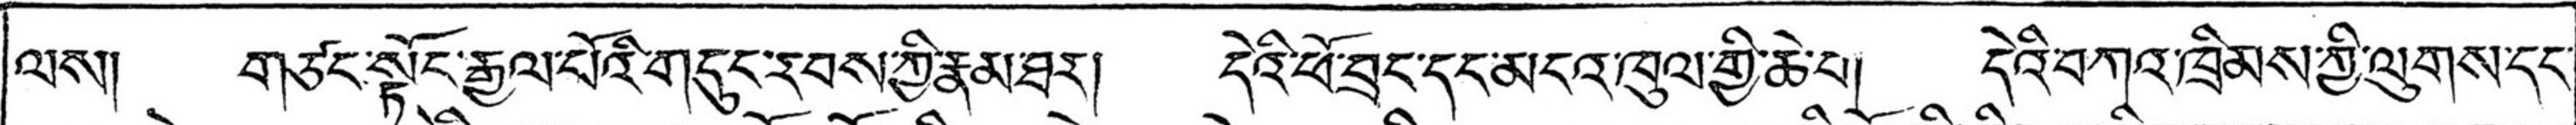ལས། གཙང་སྟོད་རྒྱལ་པོའི་གདུང་རབས་ཀྱི་རྣམ་ཐར། དེའི་ཕོ་བྲང་དང་མངའ་ཁུལ་གྱི་ཆེ་བ། དེའི་བཀའ་ཁྲིམས་གྱི་ལུགས་དང་
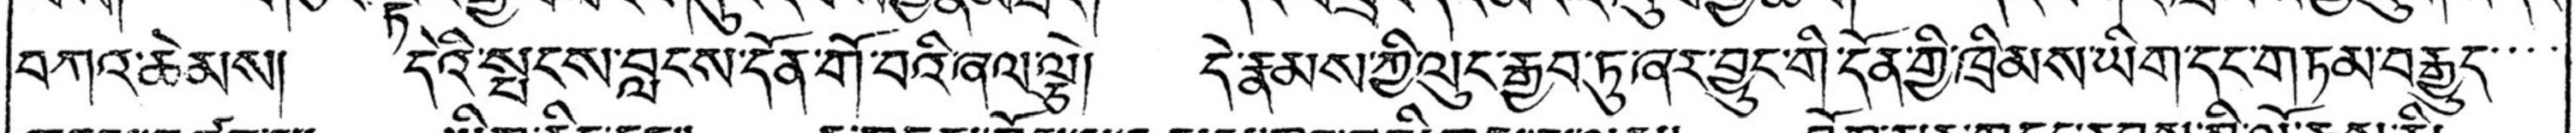བཀའ་ཆེམས། དེའི་སྤངས་བླངས་དོན་གོ་བའི་ཞལ་ལྕེ། དེ་རྣམས་ཀྱི་ལུང་རྒྱབ་ཏུ་ཞར་བྱུང་གི་དོན་གྱི་ཁྲིམས་ཡིག་དང་གཏམ་བརྒྱུད་་་་
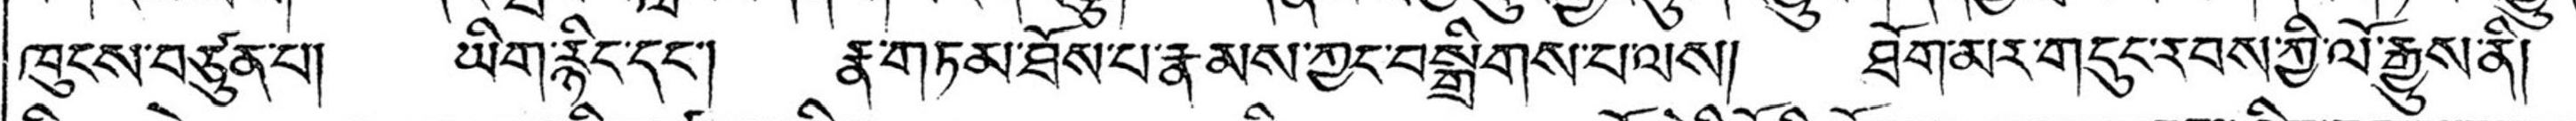ཁུངས་བཙུན་པ། ཡིག་རྙིང་དང་། རྣ་གཏམ་ཐོས་པ་རྣམས་ཀྱང་བསྒྲིགས་པ་ལས། ཐོག་མར་གདུང་རབས་ཀྱི་ལོ་རྒྱུས་ནི།
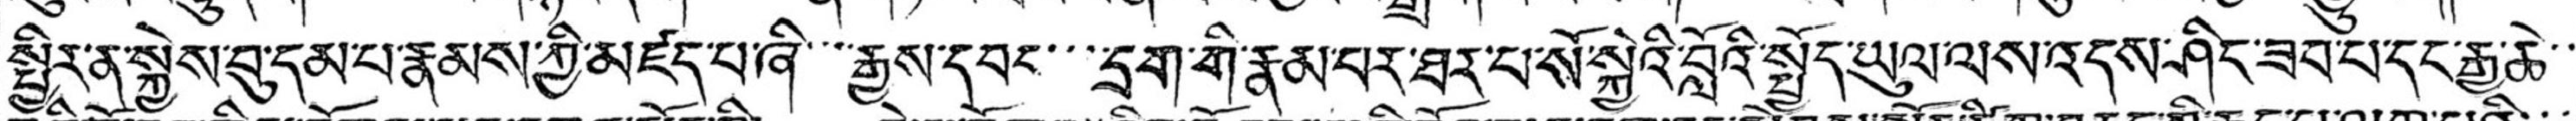སྤྱིར་ན་སྐྱེས་བུ་དམ་པ་རྣམས་ཀྱི་མཛད་པ་ཞི་་་རྒྱས་དབང་་་དྲག་གི་རྣམ་པར་ཐར་པ་སོ་སྐྱེའི་བློའི་སྤྱོད་ཡུལ་ལས་འདས་ཤིང་ཟབ་པ་དང་རྒྱ་ཆེ་་
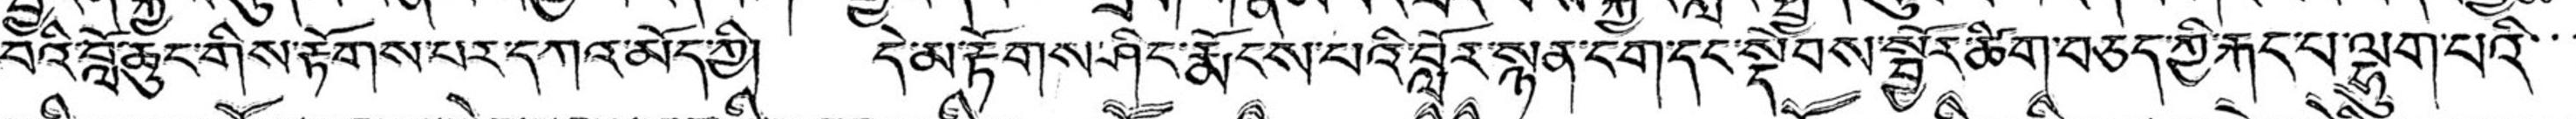བའི་བློ་ཆུང་གིས་རྟོགས་པར་དཀའ་མོད་ཀྱི། དེ་མ་རྟོགས་ཤིང་རྨོངས་པའི་བློར་སྙན་ངག་དང་སྡེབས་སྦྱོར་ཚིག་བཅད་ཀྱི་རྐང་པ་ལྷུག་པའི་་་
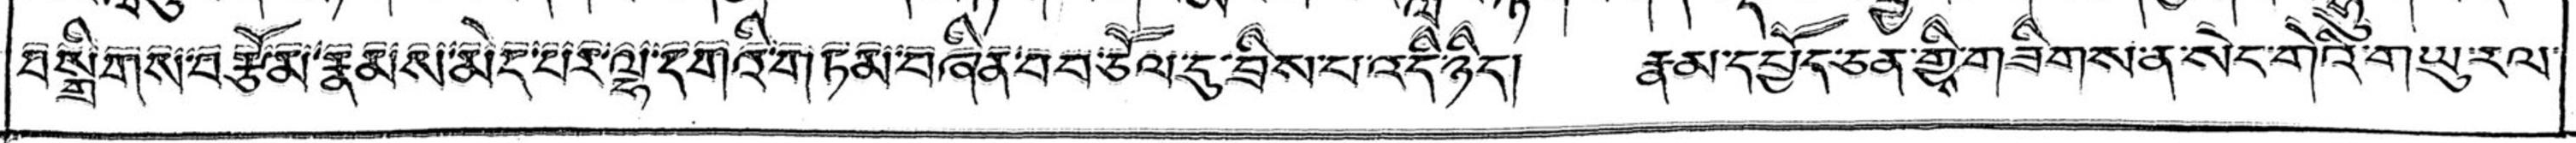བ་སྒྲིགས་བརྩོམ་རྣམས་མེད་པར་ལྷ་དགའི་གཏམ་བཞིན་བབ་ཅོལ་དུ་བྲིས་པ་འདི་ཉིད། རྣམ་དཔྱོད་ཅན་གྱིས་གཟིགས་ན་སེང་གེའི་གཡུ་རལ་
